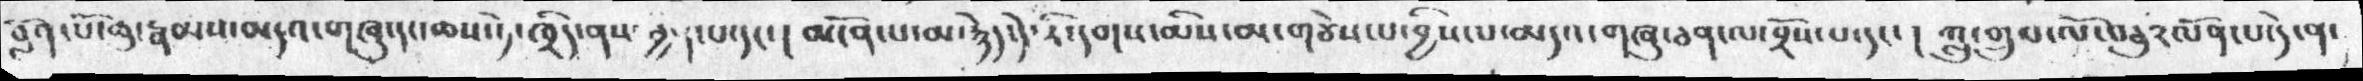བློན་པོ་ཆུ་རྣམས་མདའ་གཞུ་དང་ཆས་ཏེ་ཁྲིད་ནས་བྱ་ངང་པ་དང་།   མངོན་པ་མ་རྙེད་དེ་རི་དགས་མིས་མ་གཙེས་པའ་བྱིས་པ་མདའ་གཞུ་ཅན་ལ་བྲོས་པ་དང་།  ཀླུ་གྲུབ་ལོ་བཅུ་༢ལོན་པ་དེ་ན་
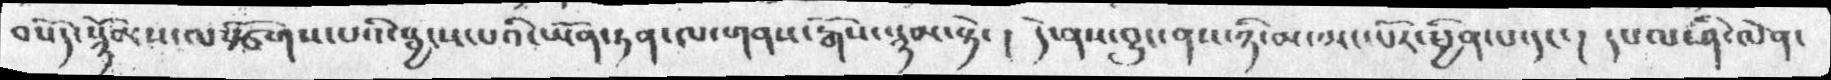བསོད་སྙོམས་ལ་སྩོགས་འི་སྦྱངས་པའི་ཡོན་ཏན་ལ་གནས་རྒོས་སྙམ་སྟེ།  དེ་ནས་བྱུང་ནས་ཉི་མ་མང་པོར་སྦྱིན་པ་དང་།  དཔལ་ཤི་ལེན་
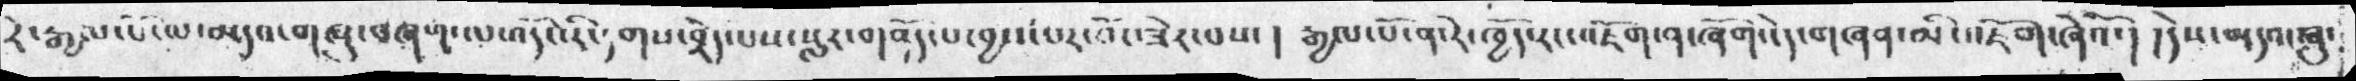རི་རྒྱལ་པོ་ལ་མདའ་གཞུ་བཞག་ལ་འདོང་རིང༴གས་བྲེད་པས་སླར་གནོད་པ་བྱས་པར་འོད་ཟེར་པས་།  རྒྱལ་པོ་ན་རེ་ཁྱོད་རང་འཇོག་ན་ཞོག་ངེད་གཞན་མི་འཇོག་ཞེའོ་།   །དེས་མདའ་ཞུ་
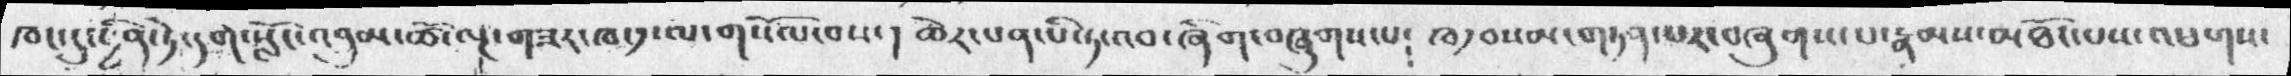ཁང་དུ་ཕྱིན་ཏེ་དགེ་སློང་འབུམ་ཚོ་ལྔ་གཟར་ཁ་༡་ལ་གསོལ་བས་།   ཆེར་པན་པི་ཏ་འབ་ཞིག་བཞུགས་པ༴  ཁ༡བསམ་གཏན་པར་བཞུགས་པ་རྣམས་མཐོང་པས་འཕགས་
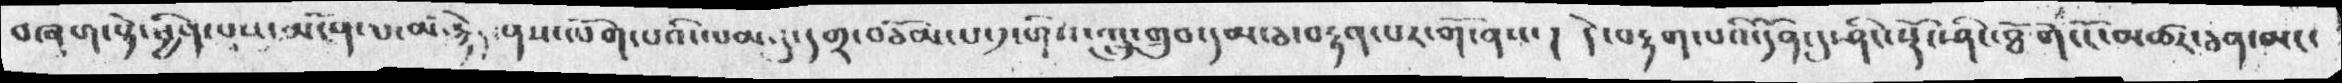བཞག་སྟེ་ཕྱིན་པས་མངོན་པ་མ་རྙེད་ནས་ལོག་པའི་ལམ་དུ་དགྲ་བཅོམ་པ་༡་གིས་ཀླུ་གྲུབ་དམ་ཅ་བརྟན་པར་གོ་ནས། དེ་བརྟགས་པའི་དོན་དུ་ཤིང་སྟོང་ཤིང་ཐོག་ངོ་མཚར་ཅན་མང་
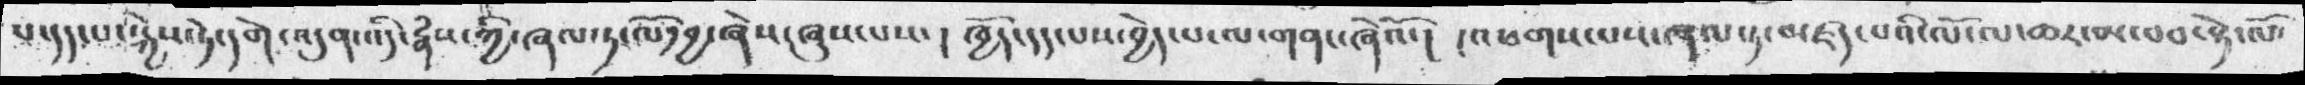པ་དད་པ་སྐྱེས་དེ་དགེ་འདུན་འདི་རྣམས་ཀྱི་ཞལ་ཏ་ལོན་བྱ་ཞེས་ཞུས་པས། ཁྱོད་དད་པས་བྱེད་པ་ལ་གནང་ཞིའོ། །འཕགས་པས་ཞལ་ཏ་མཛད་པའི་ལོ་ལ་ཆར་མ་བབ་སྟེ་ལོ་
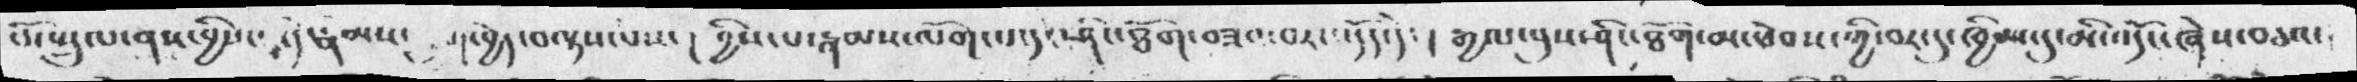ཕོ་སྤྲུལ་ནས་བྱིས་པ་དེ་རྣམས་  བྱེད་བལྟས་པས་།    བྱིས་པ་རྣམས་ལོག་པ་དང་ཤིང་ཐོག་བཟའ་བར་འདོད་དེ་།   རྒྱལ་བུས་ཤིང་ཐོག་མ་ཕེབས་ཀྱི་བར་དུ་ཁྱིམ་དུ་མི་འདོད་ཞེས་བཅའ་
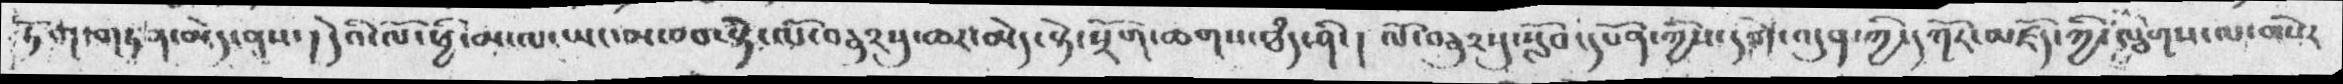ཏོག་གཏན་མེད་ནས། དེའི་ལོ་ཕྱི་མ་ལ་ཡང་མ་བབ་སྟེ་ལོ་བརྣུ༢སུ་ཆར་མེད་སྟེ་སྲོག་ཆགས་ཐམས་ཤིང། ལོ་བཅུ༢སུ་སློབ་དཔོན་ཀྱིས་དགེ་འདུན་ཀྱི་དཀོར་མཛོད་ཀྱི་ལྕགས་ལ་གསེར་
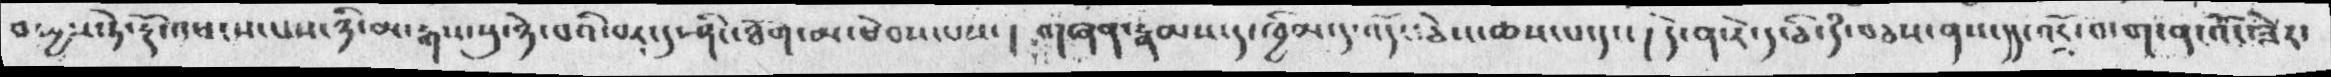བཡྱས་ཏེ་རྟོ་འཕངས་པས་ཉི་མ་སྒས་སུ་ཉེ་བའི་་རབ་དུ་ཤིང་ཐོག་མ་ཕེབས་པས། གཞན་རྣམས་ད་ཁྱིམ་ད་འོད་ཅེས་ཆས་པ་དང། དེ་ན་རེ་ད་ཅི་དཾ་བཅས་ནས་དད་འགྲོ་བ་ག་ན་འོད་ཟེར་
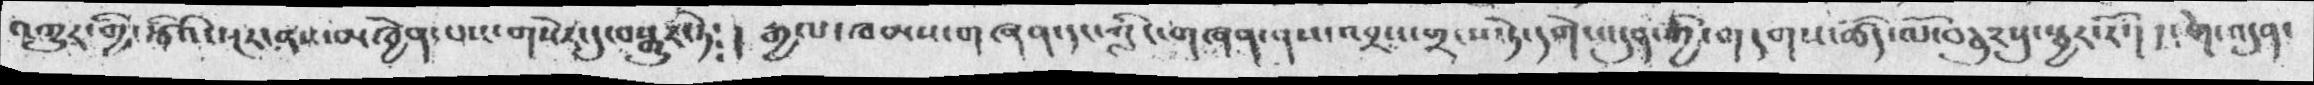འགྱུར་གྱི་རྩིའི་སྔར་ནས་མཁྱེན་པས་གསེར་དུ་བསྒྱུར་ཏེ༴།   རྒྱལ་ཁམས་གཞན་དང་གླིང་གཞན་ནས་འབྲས་གྲངས་ཏེ་དགེ་འདུན་གྱི་གདགས་ཚོད་ལོ་བཅུརསུ་སྦྱར་རོ་།  །དགེ་འདུན་
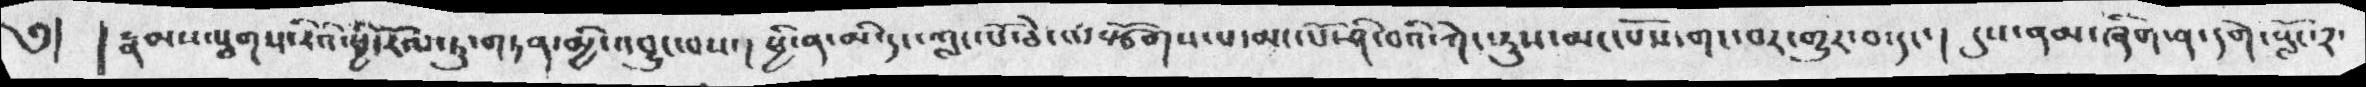༄།    །རྣམས་ལྕགས་རིའི་ཕྱི་རོལ་ཏུ་གཏན་མྱི་འབྱུང་བས་།  ཕྱི་ན་མི་དང་གླང་པོ་ཆེ་ལརྩོགས་པ་མང་པོ་ཤི་བའི་ཀེང་རུས་མང་པོས་གང་པར་གྱུར་བ་དང་།  དུས་ནམ་ཞིག་ན་དགེ་སློང་༢་
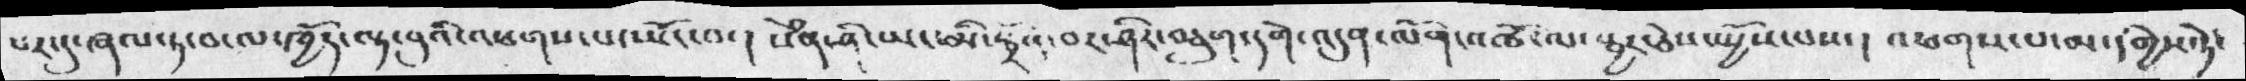པར་དུ་ཞལ་ཏ་བ་ལ་ཁྱོད་ལྟ་བུའི་འཕགས་པ་ཡོང་བ་།   སེཾན་ཤི་ཡང་མི་སྦྲོན་བར་ཤིར་བཅུག་དགེ་འདུན་ལོག་འཚོ་ལ་སྦྱར་ཅེས་སྤྱོས་པས།  འཕགས་པ་མ་དགྱིས་ཏེ་
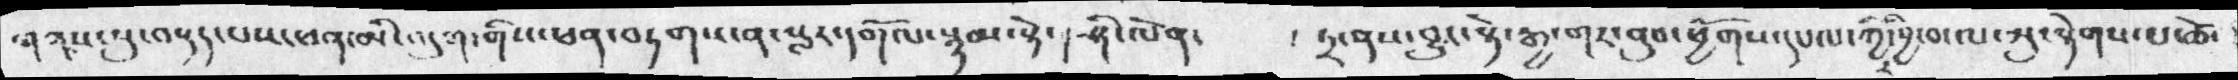གནས་སུ་བསྡད་པས་ཕན་མི་འདུག་གིས་ཕན་བཏགས་ན་སླར་དགོལ་སྙམ་སྟེ་  ཤི་ལེན་།  ཏྲ་ནས་བྱུང་སྟེ་རྒྱ་གར་ནུབ་ཕྱོགས་དཔལ་གྱིར་བྱི་བ་ལ་སུ་སྟེགས་པ་ཚེ་
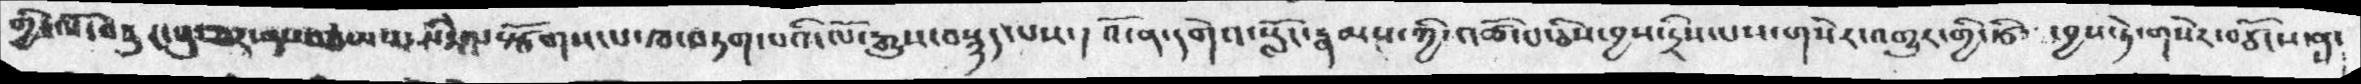གྱི་ལོ་བཅུར་རུ་ཅར་ནས་བརྩམས་པར་སི་སྟེག་སྩོགས་པ་ཁ་བཏག་པའི་ལོ་རྒྱུས་བསྙད་པས་།  འོ་ན་དགེའ་སློང་རྣམས་ཀྱི་འཚོ་བ་ཅིས་་བྱས་དྲིས་པས་གསེར་འགྱུར་གྱི་རྩི་བྱས་ཏེ་གསེར་བཙོངས་ནས་
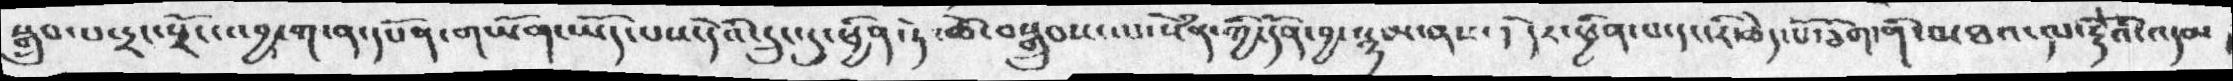སྒྲུབ་པ་དྲང་སྲོང་འབྱ་ག་ན་དཔོན་གཡོག་ཡོད་པས་དེའི་དྲུང་དུ་ཕྱིན་ཏེ་ ཚེ་བསྒྲུབས་ལ་སེམན་ཀྱི་དོན་བྱ་སྙམ་ནས་། དེར་ཕྱིན་པ་དང་རི་ཆེད་པོ་ཐོག་གི་མཐའ་ལ་རྡོའི་འདམ་
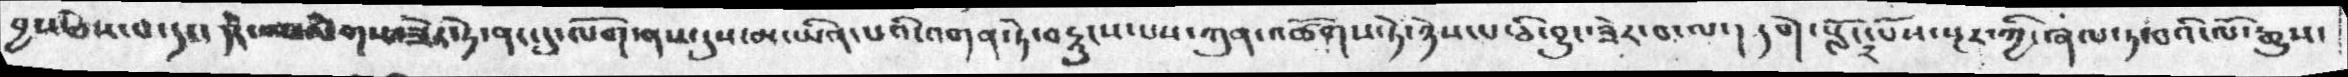བྱས་ཅེས་པ་དང་།  དེ་ལསོགས་ཟེར་ཏེ་ནང་དུ་ལོག་ནས་དུས་མ་ཡིན་འགན་ཏེ་བརྡུངས་པས་ཀུན་འཚོགས་ཏེ་ཉེས་ཅི་བྱུང་ཟེར་བ་ལ་།   དགེ་སློང་༢་པོས་སྔར་ཀྱི་ཞལ་ཏ་བའི་ལོ་རྒྱུས་
